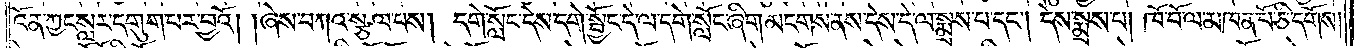འོན་ཀྱང་སླར་དགུག་པར་བྱའོ། །ཞེས་བཀའ་སྩལ་པས། དགེ་སློང་དེས་དགེ་སྦྱོང་དེ་ལ་དགེ་སློང་ཞིག་མངགས་ནས་དེས་དེ་ལ་སྨྲས་པ་དང༌། དེས་སྨྲས་པ། ཁོ་བོ་ལ་མཁན་པོ་ཅི་དགོས།
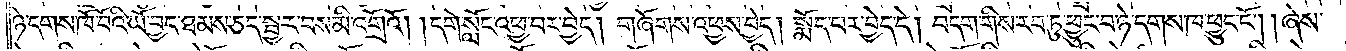ཉེ་དགས་ཁོ་བོའི་ཡོ་བྱད་ཐམས་ཅད་སྦྱར་བས་མི་འགྲོའོ། །དགེ་སློང་འཕྱ་བར་བྱེད། གཞོགས་འཕྱས་བྱེད། སྨོད་པར་བྱེད་དེ། བདག་གིས་རབ་ཏུ་ཕྱུང་བ་ཉེ་དགས་ཁ་ཕྱུང་ངོ༌། །ཞེས་
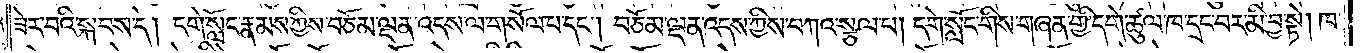ཟེར་བའི་སྐབས་དེ། དགེ་སློང་རྣམས་ཀྱིས་བཅོམ་ལྡན་འདས་ལ་གསོལ་བ་དང༌། བཅོམ་ལྡན་འདས་ཀྱིས་བཀའ་སྩལ་པ། དགེ་སློང་གིས་གཞན་གྱི་དགེ་ཚུལ་ཁ་དྲང་བར་མི་བྱ་སྟེ། ཁ་
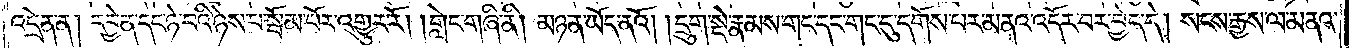འདྲེན་ན། དབྱེན་དང་ཉེ་བའི་ཉེས་པ་སྦོམ་པོར་འགྱུར་རོ། །གླེང་གཞི་ནི། མཉན་ཡོད་ནའོ། །དྲུག་སྡེ་རྣམས་གང་དང་གང་དུ་དགོས་པར་མནའ་འདོར་བར་བྱེད་དེ། སངས་རྒྱས་ལ་མནའ་
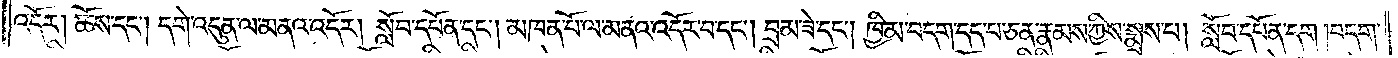འདོར། ཆོས་དང༌། དགེ་འདུན་ལ་མནའ་འདོར། སློབ་དཔོན་དང༌། མཁན་པོ་ལ་མནའ་འདོར་བ་དང༌། བྲམ་ཟེ་དང༌། ཁྱིམ་བདག་དད་པ་ཅན་རྣམས་ཀྱིས་སྨྲས་པ། སློབ་དཔོན་དག །བདག་
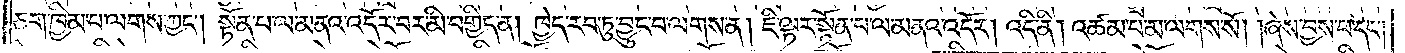ཅག་ཁྱིམ་པ་ལགས་ཀྱང༌། སྟོན་པ་ལ་མནའ་འདོར་བར་མི་བགྱིད་ན། ཁྱེད་རབ་ཏུ་བྱུང་བ་ལགས་ན། ཇི་ལྟར་སྟོན་པ་ལ་མནའ་འདོར། འདི་ནི། འཚམ་པ་མ་ལགས་སོ། །ཞེས་བྱས་པ་དང༌།
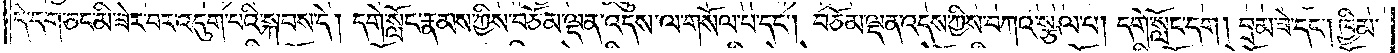དེ་དག་ཅང་མི་ཟེར་བར་འདུག་པའི་སྐབས་དེ། དགེ་སློང་རྣམས་ཀྱིས་བཅོམ་ལྡན་འདས་ལ་གསོལ་བ་དང༌། བཅོམ་ལྡན་འདས་ཀྱིས་བཀའ་སྩལ་པ། དགེ་སློང་དག །བྲམ་ཟེ་དང༌། ཁྱིམ་
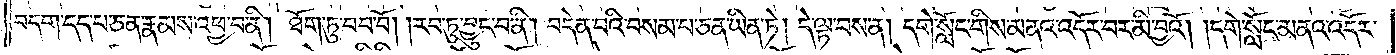བདག་དད་པ་ཅན་རྣམས་འཕྱ་བ་ནི། ཐོག་ཏུ་བབ་བོ། །རབ་ཏུ་བྱུང་བ་ནི། བདེན་པའི་བསམ་པ་ཅན་ཡིན་ཏེ། དེ་ལྟ་བས་ན། དགེ་སློང་གིས་མནའ་འདོར་བར་མི་བྱའོ། །དགེ་སློང་མནའ་འདོར་
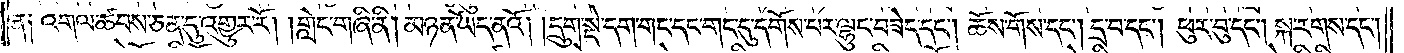ན༑ འགལ་ཚབས་ཅན་དུ་འགྱུར་རོ། །གླེང་གཞི་ནི། མཉན་ཡོད་ནའོ། །དྲུག་སྡེ་དག་གང་དང་གང་དུ་དགོས་པར་ལྷུང་བཟེད་དང༌། ཆོས་གོས་དང༌། དྲ་བ་དང༌། ཕུར་བུ་དང༌། སྐ་རགས་དང༌།
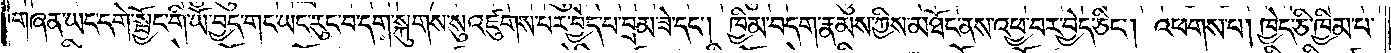གཞན་ཡང་དགེ་སྦྱོང་གི་ཡོ་བྱད་གང་ཡང་རུང་བ་དག་སྐུགས་སུ་འཛུགས་པར་བྱེད་པ་བྲམ་ཟེ་དང༌། ཁྱིམ་བདག་རྣམས་ཀྱིས་མཐོང་ནས་འཕྱ་བར་བྱེད་ཅིང༌། འཕགས་པ། ཁྱེད་ཅི་ཁྱིམ་པ་
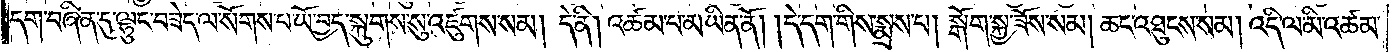དག་བཞིན་དུ་ལྷུང་བཟེད་ལ་སོགས་པ་ཡོ་བྱད་སྐུགས་སུ་འཛུགས་སམ། དེ་ནི། འཚམ་པ་མ་ཡིན་ནོ། །དེ་དག་གིས་སྨྲས་པ། སྒོག་སྐྱ་ཟོས་སམ། ཆང་འཐུངས་སམ། འདི་ལ་མི་འཚམ་
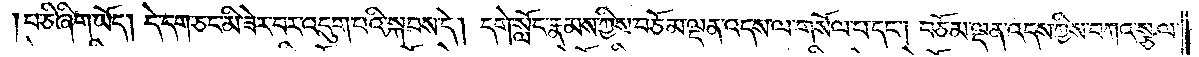པ་ཅི་ཞིག་ཡོད། དེ་དག་ཅང་མི་ཟེར་བར་འདུག་པའི་སྐབས་དེ། དགེ་སློང་རྣམས་ཀྱིས་བཅོམ་ལྡན་འདས་ལ་གསོལ་པ་དང༌། བཅོམ་ལྡན་འདས་ཀྱིས་བཀའ་སྩལ་
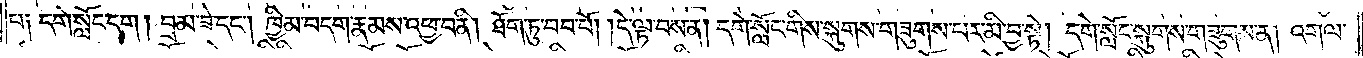པ༑ དགེ་སློང་དག །བྲམ་ཟེ་དང༌། ཁྱིམ་བདག་རྣམས་འཕྱ་བ་ནི། ཐོག་ཏུ་བབ་པོ། །དེ་ལྟ་བས་ན། དགེ་སློང་གིས་སྐུགས་གཟུགས་པར་མི་བྱ་སྟེ། དགེ་སློང་སྐུགས་གཟུགས་ན། འགལ་
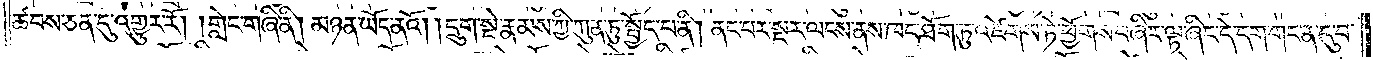ཚབས་ཅན་དུ་འགྱུར་རོ། །གླེང་གཞི་ནི། མཉན་ཡོད་ནའོ། །དྲུག་སྡེ་རྣམས་ཀྱི་ཀུན་ཏུ་སྤྱོད་པ་ནི། ནང་པར་སྔར་ལངས་ནས་ཁང་ཐོག་ཏུ་འཛེགས་ཏེ་ཕྱོགས་བཞིར་ལྟ་ཞིང་དེ་དག་གང་ན་དུ་བ་
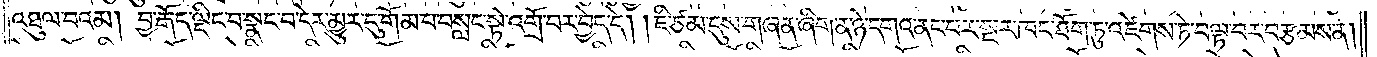འཐུལ་བའམ། བྱ་རྒོད་ལྡིང་བ་སྣང་བ་དེར་མྱུར་དུ་གོམ་པ་བསླང་སྟེ་འགྲོ་བར་བྱེད་དེ། །ཇི་ཙམ་དུས་གཞན་ཞིག་ན་ཉེ་དགའ་ནང་པར་སྔར་ཁང་ཐོག་ཏུ་འཛེགས་ཏེ་བལྟ་བར་བརྩམས་ན།
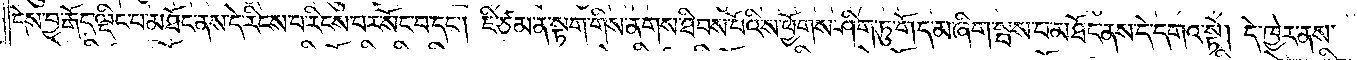དེས་བྱ་རྒོད་ལྡིང་པ་མཐོང་ནས་དེ་རིངས་པ་རིངས་པར་སོང་བ་དང༌། ཇི་ཙམ་ན་སྟག་གིས་ནགས་ཐིབས་པོའི་ས་ཕྱོགས་ཤིག་ཏུ་གོད་མ་ཞིག་སྦས་པ་མཐོང་ནས་དེ་དགའ་སྟེ། དེ་ཁྱེར་ནས་
